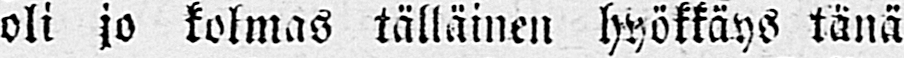oli jo kolmas tällainen hyökkäys tänä
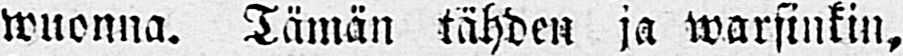wuonna. Tämän tähden ja warsinkin,
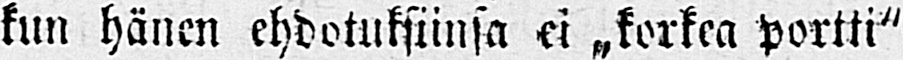kun hänen ehdotuksiinsa ei „korkea portti"
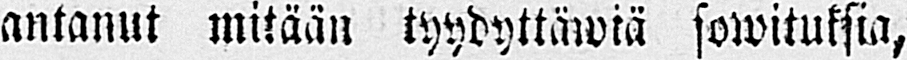antanut mitään tyydyttäwiä sowituksia,
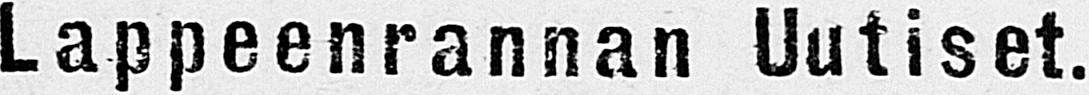Lappeenrannan Uutiset.
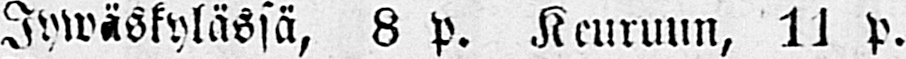Jywäskylässä, 8 p. Keuruun, 11 p.
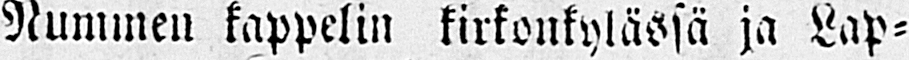Nummen kappelin kirkonkylänsä ja Lap-
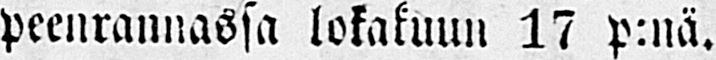peenrannassa lokakuun 17 p:nä.
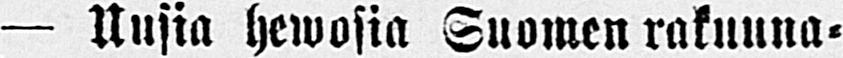— Uusia hewosia Suomen rakuuna-
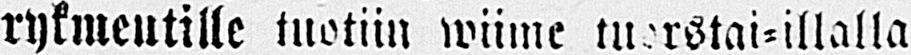rykmentille tuotiin wiime tuorstai-illalla
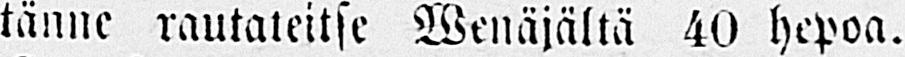tänne rautateitse Wenäjältä 40 hepoa.
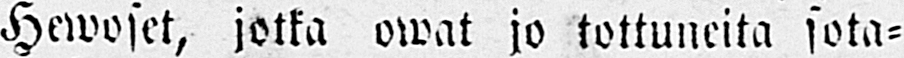Hewoset, jotka owat jo tottuneita sota-
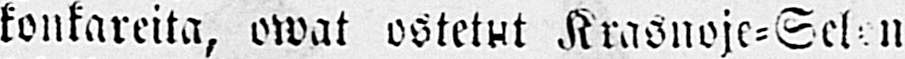konkareita, owat ostetut Krasnoje-Selon
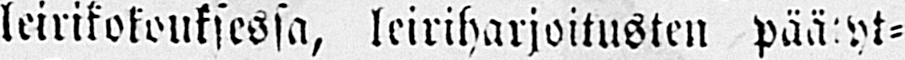leirikokouksessa, leiriharjoitusten päätyt-
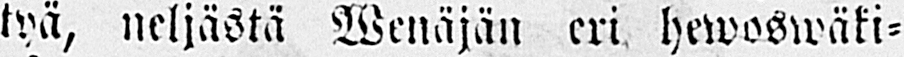tyä, neljästä Wenäjän eri hewoswäki-
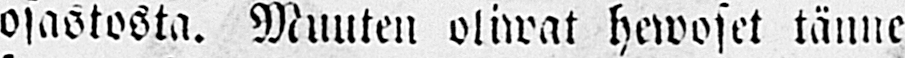osastosta. Muuten oliwat hewoset tänne
